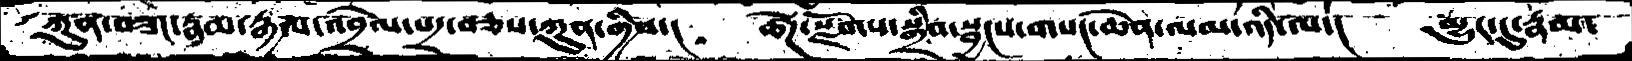ཀུན་བཟང་རྣམ་རྒྱལ་འབྲེལ་པདྲ་བཅས་ཀུན་གྱིས་།   ཚོཌ་སྫོགས་སྒྲིབ་སྦྱངས་གསང་ཆེན་ལམ་འདི་ལ་།  མྱུར་དུ་རྣམ་
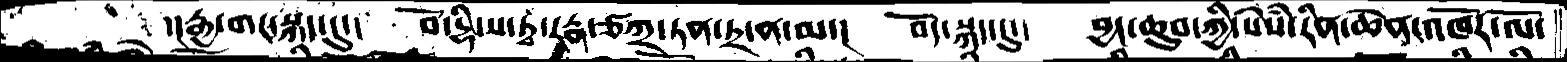་།རྒྱ་གར་སྐད་དུ་།  བོ་དྷི་ས་ཏྭ་རཏྣ་ཙཀྲ་ཏན་ཏྲ་ན་མ་།  བོད་སྐད་དུ་།  བྱང་ཆུབ་ཀྱི་སེསཾ་རིན་ཆེན་འཁོར་ལོ་
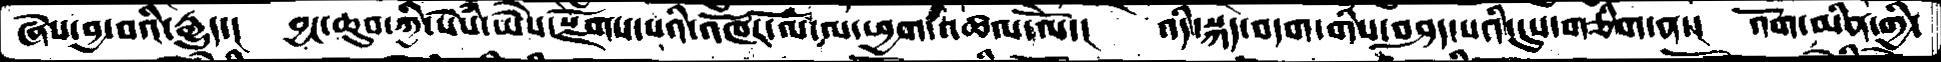ཞེས་བྱ་བའི་རྒྱུད་།  བྱང་ཆུབ་ཀྱི་སེསཾ་ཡཻས་སྫོགས་པའི་འཁོར་ལོ་ལ་ཕྱག་འཚལ་ལོ་།  འདི་སྐད་བདག་གིས་བཤད་པའི་དུས་གཅིག་ན་།   འོག་མིན་གྱི་
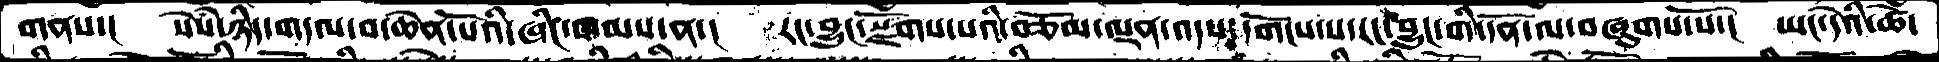གནས་།  སེསཾ་ཉིད་གདལ་བ་ཆེན་པོའི་ཞིང་ཁམས་ན་།  རང་བྱུང་སྫོགས་པའི་བཅོམ་ལྡན་འདས་དགོངས་པ་རང་བྱུང་གི་དོན་ལ་བཞུགས་སོ་།  ཡང་དེའི་ཚེ་
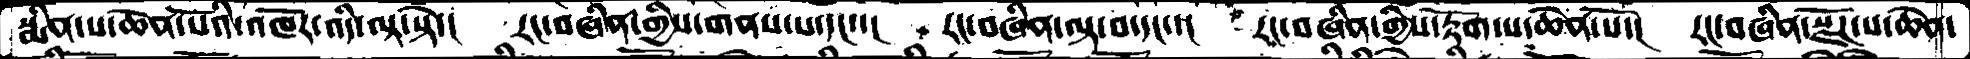སྨིན་པ་ཆེན་པོའི་འཁོར་འདི་ལྟ་སྟེ་།  རང་བཞིན་གྱིས་གནས་པ་དང་་།  རང་བཞིན་ལྟ་བ་དང་་།  རང་བཞིན་གྱིས་རྟོག་པ་ཆེན་པོ་།   རང་བཞིན་སྫོཌ་པ་ཆེན་
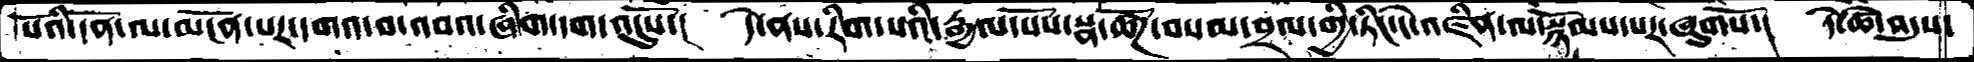པོའི་དོན་ལ་མངོན་པར་དགའ་བ་འབའ་ཞིག་དག་འདུསོ་།  དེ་ནས་རིག་པའི་རྒྱལ་པོས་སྣ་ཚོཌ་བསམ་བྲལ་གྱི་ཏིང་ངེ་འཛིན་ལ་སྙོམས་པར་ཞུགསོ་།  དེ་ཚེ་འདུས་
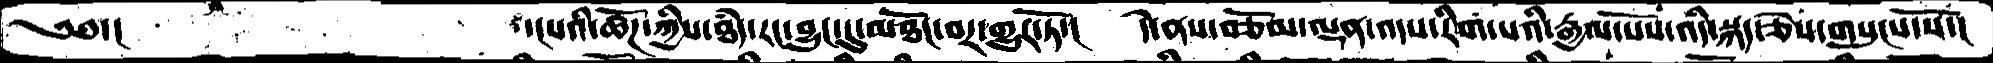༄༅་།       ་།པའི་ཚོཌ་ཀྱིས་ཐཾད་རང་བྱུང་དུ་མཐོང་བར་གྱུར་ཏོ་།  དེ་ནས་བཅོམ་ལྡན་འདས་རིག་པའི་རྒྱལ་པོས་འདི་སྐད་ཅེས་གསུངས་སོ་།
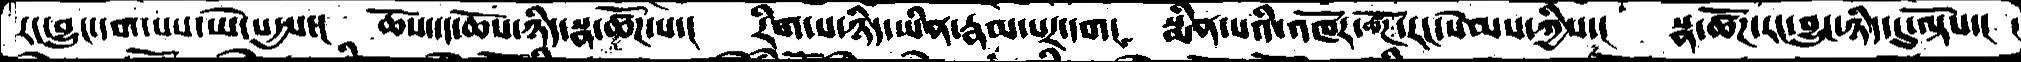རང་བྱུང་དག་པས་ཡེ་སདྱས་།  ཆོས་དང་ཆོས་ཉིད་སྣ་ཚོཌ་པ་།  རིག་པ་ཉིད་ཡིན་རྣམ་པར་དག།  སྨིན་པའི་འཁོར་ཚོཌ་རང་སེམས་ཀྱིས་།  སྣ་ཚོཌ་རང་བྱུང་ཉིད་དུ་ལྟོས་།
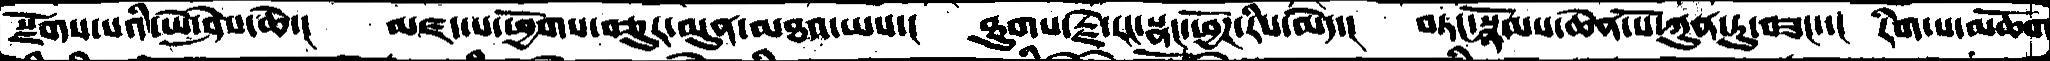སྫོགས་པའི་ཡེ་ཤེས་ཆེ་།  མཛད་པ་ཕྱོགས་བཅུར་མུན་མཐའ་པས་།  ཐུགས་རྗེ་རང་སྣང་ཕྱོཌ་རིས་མེད་།  བཏང་སྙོམས་ཆེན་པོ་ཀུན་ཏུ་བཟང་་།  རིག་པ་མཆོག
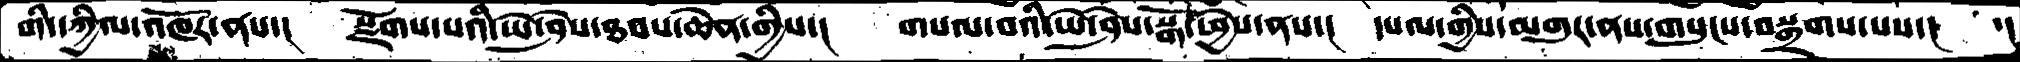གི་དཀྱིལ་འཁོར་ནས་།  སྫོགས་པའི་ཡེ་ཤེས་ཐབས་ཆེན་གྱིས་།  གསལ་བའི་ཡེ་ཤེས་སྒོ་ཕྱེས་ནས་།  དཔལ་གྱིས་མགུར་ནས་གསུངས་བསྒྲགས་པས་།  ་།
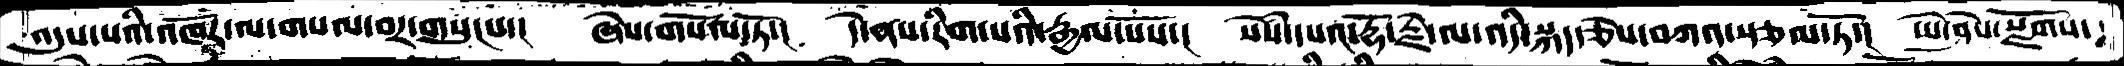འདུས་པའི་འཁོར་ལ་གསལ་བར་གསུངས་།  ཞེས་གསོལ་ཏོ་།  དེ་ནས་རིག་པའི་རྒྱལ་པོས་།  སེཾས་དཔའ་རྡོ་རྗེ་ལ་འདི་སྐད་ཅེས་བཀའ་སྩལ་ཏོ་།  ཡེ་ཤེས་སྫོགས་
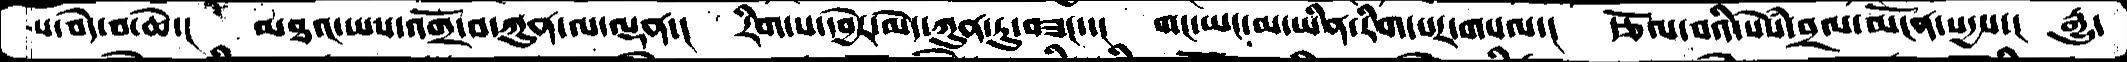པ་བདེ་བ་ཆེ་། མཐའ་ཡས་འགྲོ་བ་ཀུན་ལ་ལྡན་།  རིག་པ་དབྱེར་མེད་ཀུན་ཏུ་བཟང་་།  གང་ཡང་མ་ཡིན་རིག་པར་གསལ་།  རྩོལ་བའི་སེཾས་བྲལ་མངོན་སདྱས་།  རྒྱུ་
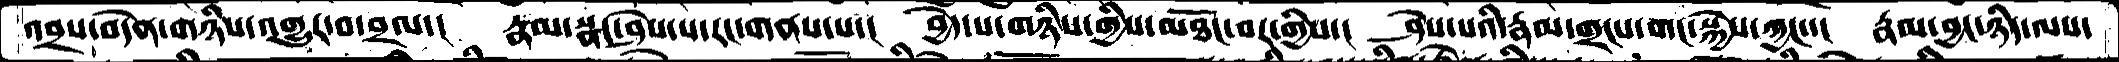འབྲས་བདེན་གཉིས་འགྱུར་བ་བྲལ་།  རྣམ་སྣང་ཤེས་པ་རང་གནས་པ་།  བྱེད་པ་གཉིས་གྱིས་མཐོང་བར་གྱིས་།  ཤེས་པའི་རྣམ་གྲངས་གང་སྐྱེས་ཀྱང་་།  རྣམ་བྱང་ཉིད་ལས་
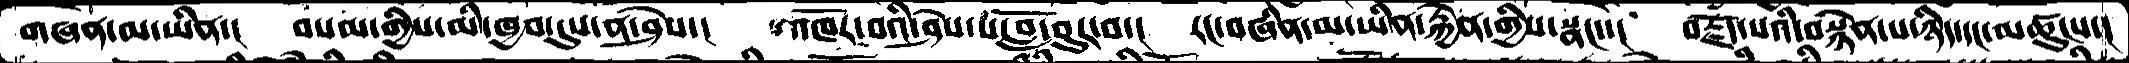གཞན་མ་ཡིན་།  བསམ་གྱིས་མི་ཁྱབ་དུས་ན་ཤེས་།  འཁོར་བའི་ཤེས་པ་བློ་བུར་བ་།  རང་བཞིན་མ་ཡིན་རྐྱེན་གྱིས་སྣང་་།  བརྗོད་པའི་བསྙེན་པ་ཉིད་དང་མཚུངས་།
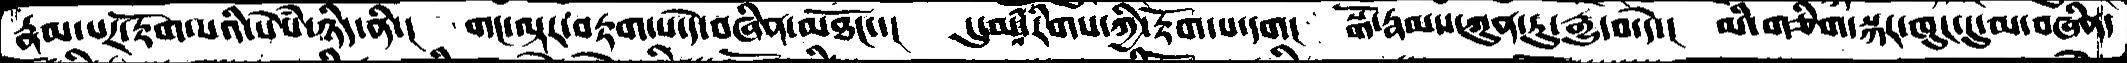རྣམ་པར་རྟོག་པའི་སེཾས་ཉིད་ནི་།  གང་ལྟར་བརྟག་པ་དེ་བཞིན་མཐོང་་།  དུ་མ་རིགས་ཀྱི་རྟོག་པ་དག།  སྒོ་རྣམས་ཀུན་ཏུ་རྒྱུ་བ་དེ་།  མི་གཅིག་སྐར་ཁུང་དུ་མ་བཞིན་
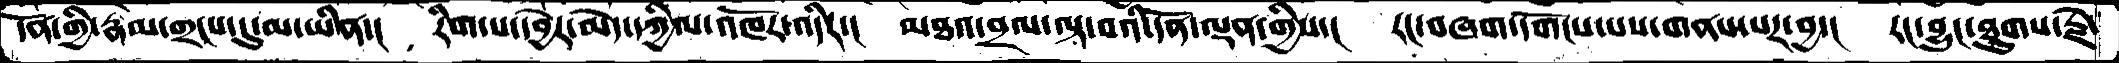དོན་གྱི་རྣམ་གྲངས་དུ་མ་ཡིན་།  རིག་པ་དབྱེར་མེད་དཀྱིལ་འཁོར་འདིར་།  མཐའ་བྲལ་ལྟ་བའི་དོན་ལྡན་གྱིས་།  རང་བཞག་དགོངས་པས་གནས་པར་བྱ་།  རང་བྱུང་ཐུགས་རྗེ་
